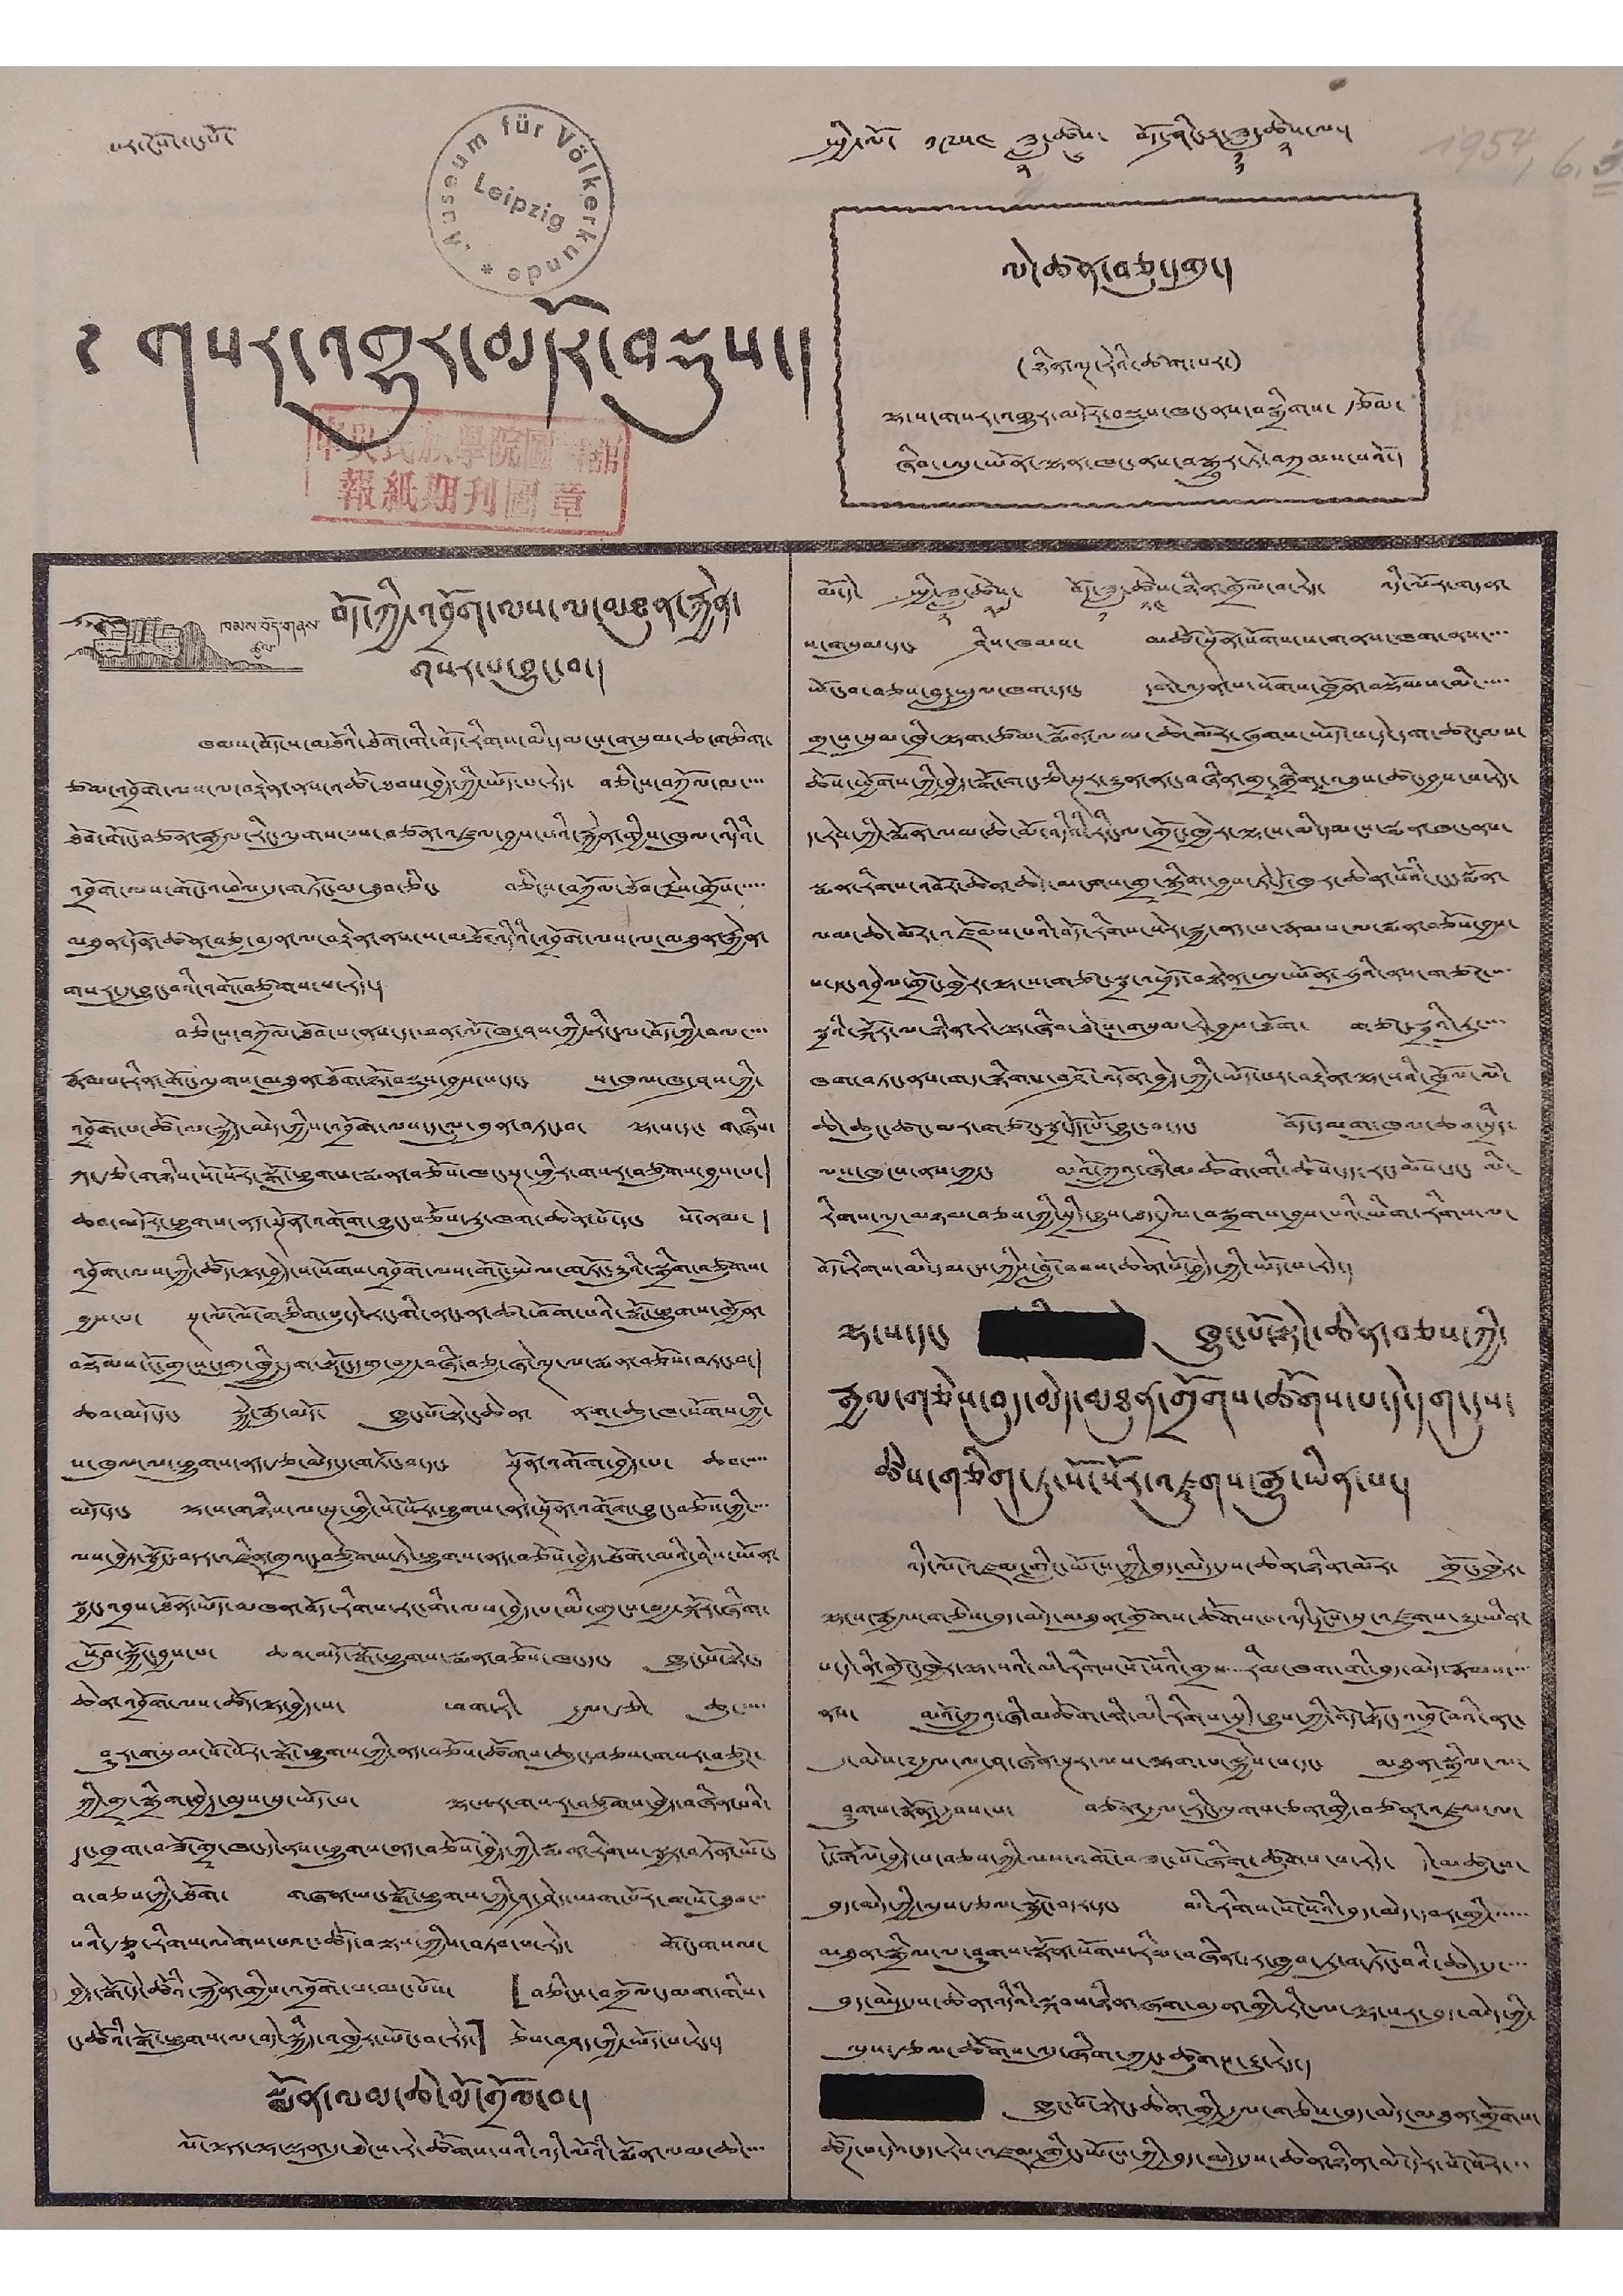པར་ངོས་དང་པོ་ སྤྱི་ལོ་ ༡༩༥༤ ཟླ་
༢
ཚེས་
༦
བོད་ཤིང་རྟ་ཟླ་
༡༡
ཚེས་
༢
ལ་།
༄ གསར་འགྱུར་མདོར་བསྡུས་།
ལེ་ཚན་བཅུ་དགུ་།
(ཉིན་ལྔ་རེའི་ཚག་པར་)
ལྷ་ས་གསར་འགྱུར་མདོར་བསྡུས་ཁང་ནས་བསྒྲིགས་ རྩོམ་
ཞིབ་ཨུ་ཡོན་ལྷན་ཁང་ནས་བསྒྱུར་ཏེ་བཀྲམས་པའོ་།
ཁམས་བོད་གནས་
ཚུལ་
བོད་ཀྱི་འབྲོག་ལས་ལ་མཐུན་རྐྱེན་
གསར་པ་བྱུང་བ་།
ཁམས་བོད་ས་མཐོའི་ཐོག་གི་བོད་རིགས་མི་དམངས་གསུམ་ཆ་གཅིག་
ཙམ་འབྲོག་ལས་ལ་བརྟེན་ནས་འཚོ་ཐབས་བྱེད་ཀྱི་ཡོད་པ་རེད་ བཅིངས་བཀྲོལ་མ་་་་
ཐོབ་གོང་བཙན་རྒྱལ་རིང་ལུགས་པས་བཙན་འཛུལ་བྱས་པའི་རྐྱེན་གྱིས་ཁུལ་འདིའི་
འབྲོག་ལས་གོང་འཕེལ་དུ་གཏོང་མ་ཐུབ་ཅིང་ བཅིངས་བཀྲོལ་ཐོབ་རྗེས་གྲོས་་་་་
མཐུན་དོན་ཚན་བཅུ་བདུན་ལ་བརྟེན་ནས་ས་མཐོ་འདིའི་འབྲོག་ལས་ལ་མཐུན་རྐྱེན་
གསར་དུ་བྱུང་བའི་འགོ་བཙུགས་པ་རེད་།
བཅིངས་བསྐྲོལ་ཐོབ་པ་ནས་ད་ཕན་ལོ་ཁ་ཤས་ཀྱི་རིང་ལ་བོད་ཀྱི་བལ་་་་
རྣམས་རིན་གོང་ལུགས་མཐུན་ཐོག་ཉོ་བསྡུས་བྱས་པ་དང་ ས་ཁུལ་ཁ་ཤས་ཀྱི་
འབྲོག་པ་ཚོ་ལ་སྐྱེད་མེད་ཀྱིས་འབྲོག་ལས་དངུལ་བུན་བཏང་བ་ ལྷ་ས་དང་ གཞིས་
ཀ་རྩེ་གཉིས་སོ་སོར་སྒོ་ཤུགས་སྨན་བཅོས་ཁང་སྔ་ཕྱིར་གསར་བཙུགས་བྱས་པ་།
ཆབ་མདོར་ཕྱུགས་ནད་སྔོན་འགོག་བྱུང་བཅོས་རུ་ཁག་ཆེན་པོ་དང་ སོ་ནམ་ །
འབྲོག་ལས་ཀྱི་ཚོད་ལྟ་བྱེད་ས་སོགས་འབྲོག་ལས་གོང་སྤེལ་གཏོང་རྒྱུའི་སྒྲིག་བཙུགས་
བྱས་པ་ སྔ་ལོ་ལོ་གཅིག་པུ་དེ་རང་གི་ནང་ན་ཚ་ཕོག་པའི་སྒོ་ཕྱུགས་ཁྱོན་
བསྡོམས་ངོ་གྲངས་དགུ་ཁྲི་དྲུག་སྟོང་དགུ་བརྒྱ་བཞི་བཅུ་ཞེ་ལྔ་ལ་སྨན་བཅོས་བཏང་བ་།
ཆབ་མདོ་དང་ སྐྱེ་རྒུ་མདོ་ ཁྱུང་པོ་སྟེང་ཆེན་ ནག་ཆུ་ཁ་སོགས་ཀྱི་
ས་ཁུལ་ལ་ཕྱུགས་ནད་རྩ་མེད་དུ་གཏོང་བ་དང་ སྔོན་འགོག་བྱེད་པ་ ཆབ་་་་
མདོ་དང་ ལྷ་ས་གཉིས་ལ་སྔ་ཕྱི་སོ་སོར་ཕྱུགས་ནད་སྔོན་འགོག་བྱུང་བཅོས་ཀྱི་་་་
ལས་བྱེད་སྦྱོང་བདར་འཛིན་གྲའང་བཙུགས་ཏེ་ཕྱུགས་ནད་བཅོས་བྱེད་ཐོག་མའི་ཤེས་ཡོན་
སྦྱང་འབྲས་ཐོན་ཡོད་མཁན་བོད་རིགས་རང་གི་ལས་བྱེད་པ་མི་གྲངས་བརྒྱ་སྐོར་ཞིག་
སློབ་སྦྱོང་བྱས་པ་ ཆབ་མདོ་སྒོ་ཕྱུགས་སྨན་བཅོས་ཁང་དང་ ཁྱུང་པོ་སྟེང་
ཆེན་འབྲོག་ལས་ཚོད་ལྟ་བྱེད་ས་ ཕག་རི་ རྒྱལ་རྩེ་ ཆུ་་་་་
ཤུར་གསུམ་སོ་སོར་སྒོ་ཕྱུགས་ཀྱི་ནད་བཅོས་ཚོགས་ཆུང་བཅས་གསར་བཙུཊ་
ཀྱི་གྲྭ་སྒྲིག་བྱེད་མུས་སུ་ཡོད་པ་ ལྷ་སར་གསར་བཙུགས་བྱེད་བཞིན་པའི་
དྭང་ཁྲག་བཟོ་གྲྭ་ཁང་དེ་ནས་ཕྱུགས་ནད་བཅོས་བྱེད་ཀྱི་སྨན་རིགས་སྦྱར་བཏོན་ཡོང་
བ་བཅས་ཀྱི་ཐོག་ གཞན་ཡང་སྒོ་ཕྱུགས་ཀྱི་ཤ་ཤེད་ཡག་པོར་གསོ་ཐུབ་་་
པའི་རྩྭ་རིགས་ལེགས་པའང་ཚོད་བལྟས་ཀྱིས་བཏབ་པ་རེད་ གོང་གསལ་
བྱེད་སྒོ་དེ་ཚོའི་རྐྱེན་གྱིས་འབྲོག་པ་མང་པོས་ 「བཅིངས་བཀྲོལ་དམག་གིས་
ང་ཚོ་སྒོ་ཕྱུགས་ལ་བདེ་སྐྱིད་ཁྱེར་ཡོང་བ་རེད་」 ཅེས་བཤད་ཀྱི་ཡོད་པ་རེད་
སྨོན་ལམ་ཆེ་མོ་གྲོལ་བ།
ལོ་ལྟར་ལྷ་ལྡན་དུ་ཐེངས་རེ་ཚོགས་པའི་འདི་ལོའི་སྨོན་ལམ་ཆེ་་་་
མོ་དེ་སྤྱི་ཟླ་
༢
ཚེས་
༢༧
བོད་ཟླ་
༡
ཚེས་
༢༤
ཉིན་གྲོལ་བ་རེད་ འདི་ལོར་གདན་
ས་གསུམ་དང་ ཤིས་ཁམས་ མཚོ་སྔོན་སོགས་ས་གནས་ཁག་ནས་་་་
ཡོང་བ་བཅས་བླ་སྤྲུལ་ཁག་དང་ དགེ་འདུན་པ་སོགས་ཁྱོན་བསྡོམས་མི་་་་་
གྲངས་སུམ་ཁྲི་ལྷག་ཙམ་སྨོན་ལམ་ཆེ་མོར་ཞུགས་ཡོད་པ་དེ་དག་ཚང་མས་
ཆོས་ཕྱོགས་ཀྱི་བྱེད་སྒོ་གང་ཅི་སྔར་རྒྱུན་ནང་བཞིན་གྲྭ་སྒྲིག་འཐུས་ཚང་བྱས་པ་རེད་
ད་རེས་ཀྱི་སྨོན་ལམ་ཆེ་མོ་འདིའི་རིང་ལ་གྲོང་ཁྱེར་ལྷ་ས་མི་དམངས་སྨན་ཁང་ནས་
སྨན་རིགས་འབོར་ཆེན་ཆེ་མངགས་གྲྭ་སྒྲིག་བྱས་ཏེ་དོ་ཁུར་ཆེན་པོའི་ངང་སྨོན་
ལམ་ཆེ་མོར་འཛོམས་པའི་བོད་རིགས་སེར་སྐྱ་ནད་པ་རྣམས་ལ་སྨན་བཅོས་བྱས་
པ་དང་འབྲེལ་གྲོང་ཁྱེར་ལྷ་ས་གཙང་སྦྲ་འཕྲོད་བསྟེན་ཨུ་ཡོན་ཧུའི་ནས་གཙང་་་་
སྦྲའི་སྐོར་ལ་ཉིན་རེ་ལྟ་ཞིབ་ཐེངས་གསུམ་རེ་བྱས་ཐོག་ གཙང་སྦྲའི་རུ་་་་
ཁག་བཏང་ནས་གད་སྙིགས་བཤོ་འདོན་བྱེད་ཀྱི་ཡོད་པར་བརྟེན་ལྷ་སའི་ཁྲོན་ལཾ་
ཆེ་ཆུང་ཚང་མར་གཙང་སྦྲ་དོད་པོ་བྱུང་བ་དང་ བོད་དམག་ཁུལ་ཆབ་སྲིད་
ལས་ཁུངས་ནས་ཀྱང་ མའོ་ཀྲུའུ་ཞི་མཆོག་གི་ཆོས་དད་རང་མོས་དང་ མི་
རིགས་འདྲ་མཉམ་བཅས་ཀྱི་སྲིད་བྱུས་ཐད་དྲིལ་བསྒྲགས་བྱས་པའི་ཡིག་རིགས་ལ་
བོད་རིགས་མི་དམངས་ཀྱིས་བློ་བབས་ཆེན་པོ་བྱེད་ཀྱི་ཡོད་པ་རེད་།
ལྷ་ས་དང་
ཁྱུང་པོ་སྟེང་ཆེན་བཅས་ཀྱི་
རྒྱལ་གཅེས་བུད་མེད་མཐུན་གྲོགས་ཚོགས་པ་དེ་དག་དུས་
ཚེས་གཅིག་ཏུ་སོ་སོར་འཛུགས་རྒྱུ་ཡིན་པ་།
འདི་ལོ་འཛམ་གླིང་ཡོངས་ཀྱི་བུད་མེད་དུས་ཆེན་ཉིན་མོར་ གྲོང་ཁྱེར་
ལྷ་ས་རྒྱལ་གཅེས་བུད་མེད་མཐུན་གྲོགས་ཚོགས་པ་འདི་དངོས་སུ་འཛུགས་རྒྱུ་ཡིན་
པ་དེ་ནི་གྲོང་ཁྱེར་ལྷ་སའི་མི་རིགས་སོ་སོའི་གྲས་་་རིམ་ཁག་གི་བུད་མེད་རྣམས་་་་
ནས་ མའོ་ཀྲུའུ་ཞི་མཆོག་གི་མི་རིགས་སྲིད་བྱུས་ཀྱི་འོད་སྟོང་འཕྲོ་བའི་ནང་
དུ་མེས་༸རྒྱལ་ལ་ཤ་ཞེན་སྔར་ལས་ལྷག་པ་སྐྱེས་པ་དང་ མཐུན་སྒྲིལ་ལ་
ཤུགས་སྣོན་རྒྱབས་པ་ བཙན་རྒྱལ་རིང་ལུགས་ཅན་གྱི་བཙན་འཛུལ་ལ་
ངོ་རྒོལ་བྱེད་པ་བཅས་ཀྱི་ལས་འགོ་བཟང་པོ་ཞིག་ཚུགས་པ་རེད་ དེ་མཚུངས་
བུད་མེད་ཀྱི་ལུས་རྩལ་སྦྱོང་བདར་དང་ མི་རིགས་སོ་སོའི་བུད་མེད་དབར་གྱི་་་་་་
མཐུན་སྒྲིལ་ལ་ཤུགས་སྣོན་སོགས་རིམ་བཞིན་དར་ཁྱབ་ཏུ་གཏོང་བའི་ཆེད་དུ་་་་
བུད་མེད་དུས་ཆེན་འདིའི་སྐབས་ཉིན་ཞག་བདུན་གྱི་རིང་ལ་ལྷ་སར་བུད་མེད་ཀྱི་
ལུས་རྩལ་ཚོགས་འདུ་ཞིག་ཀྱང་ཚུགས་རྒྱུ་རེད་།
ཁྱུང་པོ་སྟེང་ཆེན་གྱི་རྒྱལ་གཅེས་བུད་མེད་མཐུན་གྲོགས་
ཚོཊ་པ་དེའང་ད་རེས་འཛམ་གླིང་ཡོངས་ཀྱི་བུད་མེད་དུས་ཆེན་ཉིན་མོ་དེར་སོ་སོར་་་
